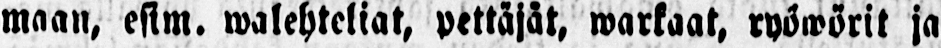maan, esim. walehteliat, pettäjät, warkaat, ryöwörit ja
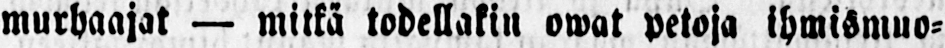murhaajat — mitkä todellakin owat petoja ihmismuo-
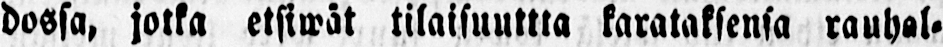dossa, jotka etsiwät tilaisuuttta karataksensa rauhal-
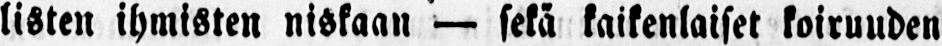listen ihmisten niskaan — sekä kaikenlaiset koiruuden
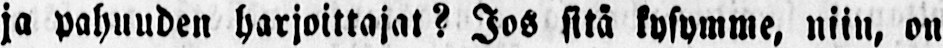ja pahuuden harjoittajat? Jos sitä kysymme, niin, on
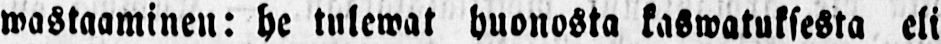wastaaminen: he tulewat huonosta kaswatuksesta eli
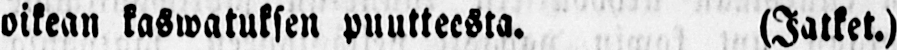oikean kaswatuksen puutteesta. (Jatket.)
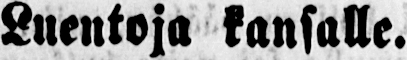Luentoja kansalle.
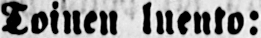Toinen luento:
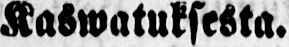Kaswatuksesta.*
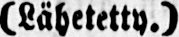(Lähetetty.)
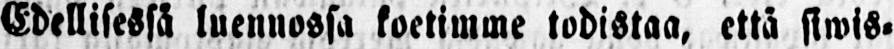Edellisessä luennossa koetimme todistaa, että siwis-
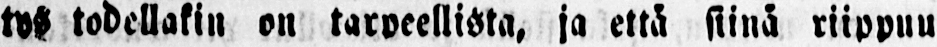tys todellakin on tarpeellista, ja että siinä riippuu
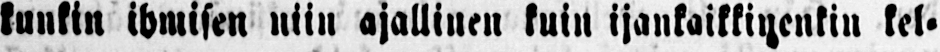kunkin ihmisen niin ajallinen kuin ijankaikkinenkin kel-
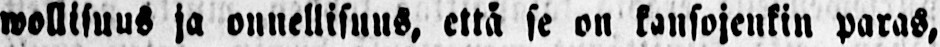wollisuus ja onnellisuus, että se on kansojenkin paras,
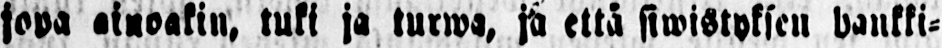jopa ainoakin, tuki ja turwa, ja että siwistyksen hankki-
